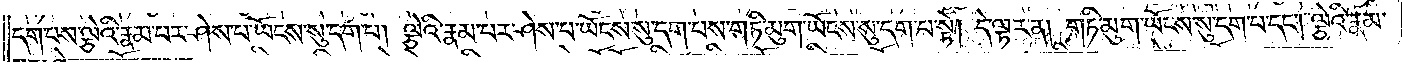དག་པས་ལྕེའི་རྣམ་པར་ཤེས་པ་ཡོངས་སུ་དག་པ། ལྕེའི་རྣམ་པར་ཤེས་པ་ཡོངས་སུ་དག་པས་གཏི་མུག་ཡོངས་སུ་དག་པ་སྟེ། དེ་ལྟར་ན། གཏི་མུག་ཡོངས་སུ་དག་པ་དང༌། ལྕེའི་རྣམ་
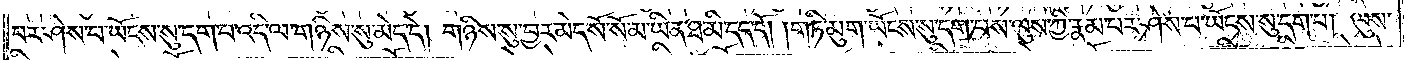པར་ཤེས་པ་ཡོངས་སུ་དག་པ་འདི་ལ་གཉིས་སུ་མེད་དེ། གཉིས་སུ་བྱར་མེད་སོ་སོ་མ་ཡིན་ཐ་མི་དད་དོ། །གཏི་མུག་ཡོངས་སུ་དག་པས་ལུས་ཀྱི་རྣམ་པར་ཤེས་པ་ཡོངས་སུ་དག་པ། ལུས་
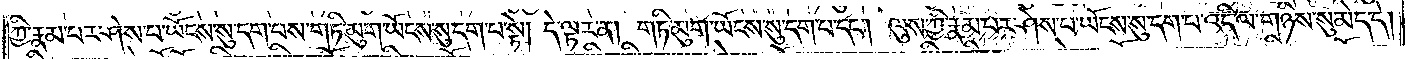ཀྱི་རྣམ་པར་ཤེས་པ་ཡོངས་སུ་དག་པས་གཏི་མུག་ཡོངས་སུ་དག་པ་སྟེ། དེ་ལྟར་ན། གཏི་མུག་ཡོངས་སུ་དག་པ་དང༌། ལུས་ཀྱི་རྣམ་པར་ཤེས་པ་ཡོངས་སུ་དག་པ་འདི་ལ་གཉིས་སུ་མེད་དེ།
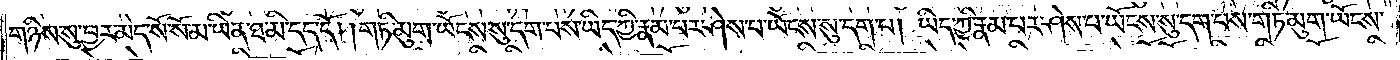གཉིས་སུ་བྱར་མེད་སོ་སོ་མ་ཡིན་ཐ་མི་དད་དོ། །གཏི་མུག་ཡོངས་སུ་དག་པས་ཡིད་ཀྱི་རྣམ་པར་ཤེས་པ་ཡོངས་སུ་དག་པ། ཡིད་ཀྱི་རྣམ་པར་ཤེས་པ་ཡོངས་སུ་དག་པས་གཏི་མུག་ཡོངས་
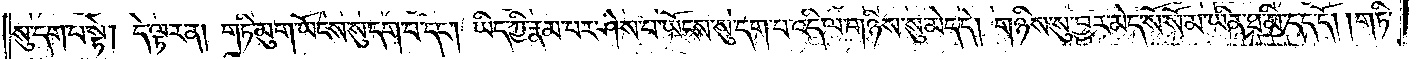སུ་དག་པ་སྟེ། དེ་ལྟར་ན། གཏི་མུག་ཡོངས་སུ་དག་པ་དང༌། ཡིད་ཀྱི་རྣམ་པར་ཤེས་པ་ཡོངས་སུ་དག་པ་འདི་ལ་གཉིས་སུ་མེད་དེ། གཉིས་སུ་བྱར་མེད་སོ་སོ་མ་ཡིན་ཐ་མི་དད་དོ། །གཏི་
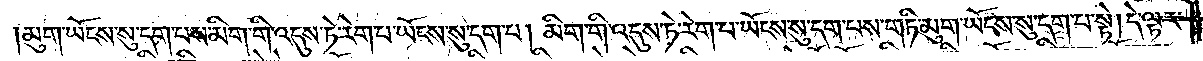མུག་ཡོངས་སུ་དག་པས་མིག་གི་འདུས་ཏེ་རེག་པ་ཡོངས་སུ་དག་པ། མིག་གི་འདུས་ཏེ་རེག་པ་ཡོངས་སུ་དག་པས་གཏི་མུག་ཡོངས་སུ་དག་པ་སྟེ། དེ་ལྟར་
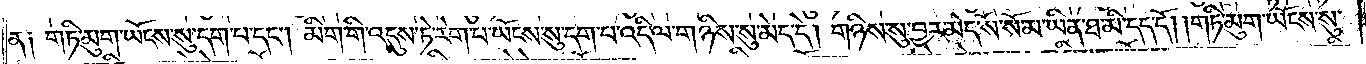ན༑ གཏི་མུག་ཡོངས་སུ་དག་པ་དང༌། མིག་གི་འདུས་ཏེ་རེག་པ་ཡོངས་སུ་དག་པ་འདི་ལ་གཉིས་སུ་མེད་དེ། གཉིས་སུ་བྱར་མེད་སོ་སོ་མ་ཡིན་ཐ་མི་དད་དོ། །གཏི་མུག་ཡོངས་སུ་
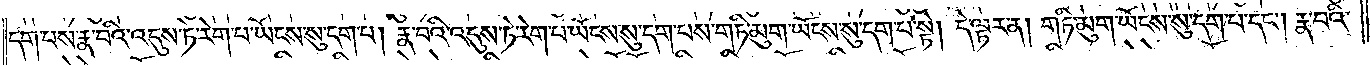དག་པས་རྣ་བའི་འདུས་ཏེ་རེག་པ་ཡོངས་སུ་དག་པ། རྣ་བའི་འདུས་ཏེ་རེག་པ་ཡོངས་སུ་དག་པས་གཏི་མུག་ཡོངས་སུ་དག་པ་སྟེ། དེ་ལྟར་ན། གཏི་མུག་ཡོངས་སུ་དག་པ་དང༌། རྣ་བའི་
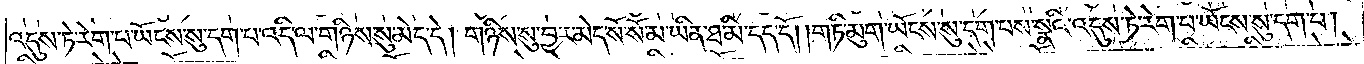འདུས་ཏེ་རེག་པ་ཡོངས་སུ་དག་པ་འདི་ལ་གཉིས་སུ་མེད་དེ། གཉིས་སུ་བྱར་མེད་སོ་སོ་མ་ཡིན་ཐ་མི་དད་དོ། །གཏི་མུག་ཡོངས་སུ་དག་པས་སྣའི་འདུས་ཏེ་རེག་པ་ཡོངས་སུ་དག་པ་
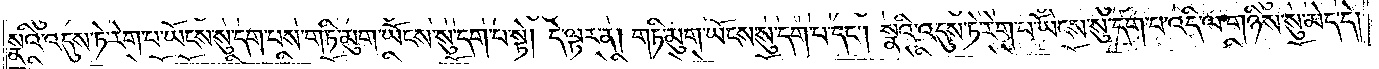སྣའི་འདུས་ཏེ་རེག་པ་ཡོངས་སུ་དག་པས་གཏི་མུག་ཡོངས་སུ་དག་པ་སྟེ། དེ་ལྟར་ན། གཏི་མུག་ཡོངས་སུ་དག་པ་དང༌། སྣའི་འདུས་ཏེ་རེག་པ་ཡོངས་སུ་དག་པ་འདི་ལ་གཉིས་སུ་མེད་དེ།
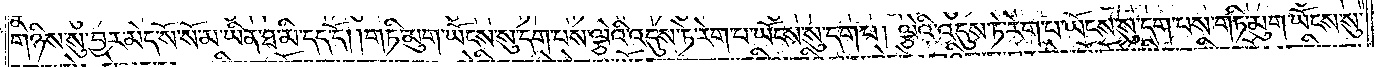གཉིས་སུ་བྱར་མེད་སོ་སོ་མ་ཡིན་ཐ་མི་དད་དོ། །གཏི་མུག་ཡོངས་སུ་དག་པས་ལྕེའི་འདུས་ཏེ་རེག་པ་ཡོངས་སུ་དག་པ། ལྕེའི་འདུས་ཏེ་རེག་པ་ཡོངས་སུ་དག་པས་གཏི་མུག་ཡོངས་སུ་
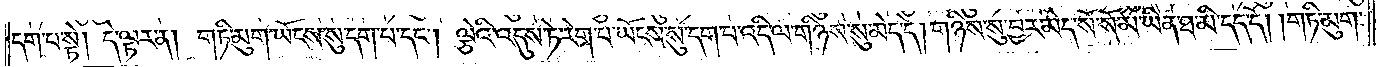དག་པ་སྟེ། དེ་ལྟར་ན། གཏི་མུག་ཡོངས་སུ་དག་པ་དང༌། ལྕེའི་འདུས་ཏེ་རེག་པ་ཡོངས་སུ་དག་པས་དག་པ་འདི་ལ་གཉིས་སུ་མེད་དེ། གཉིས་སུ་བྱར་མེད་སོ་སོ་མ་ཡིན་ཐ་མི་དད་དོ། །གཏི་མུག་
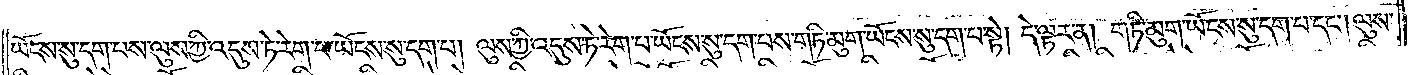ཡོངས་སུ་དག་པས་ལུས་ཀྱིས་འདུས་ཏེ་རེག་པ་ཡོངས་སུ་དག་པ། ལུས་ཀྱི་འདུས་ཏེ་རེག་པ་ཡོངས་སུ་དག་པས་གཏི་མུག་ཡོངས་སུ་དག་པ་སྟེ། དེ་ལྟར་ན། གཏི་མུག་ཡོངས་སུ་དག་པ་དང༌། ལུས་
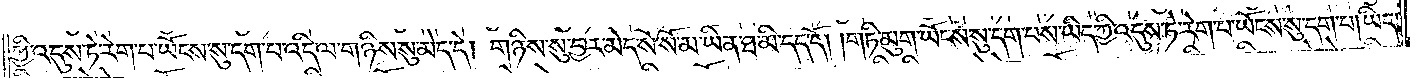ཀྱི་འདུས་ཏེ་རེག་པ་ཡོངས་སུ་དག་པ་འདི་ལ་གཉིས་སུ་མེད་དེ། གཉིས་སུ་བྱར་མེད་སོ་སོ་མ་ཡིན་ཐ་མི་དད་དོ། གཏི་མུག་ཡོངས་སུ་དག་པས་ཡིད་ཀྱི་འདུས་ཏེ་རེག་པ་ཡོངས་སུ་དག་པ། ཡིད་
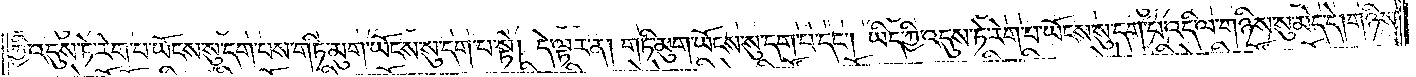ཀྱི་འདུས་ཏེ་རེག་པ་ཡོངས་སུ་དག་པས་གཏི་མུག་ཡོངས་སུ་དག་པ་སྟེ། དེ་ལྟར་ན། གཏི་མུག་ཡོངས་སུ་དག་པ་དང༌། ཡིད་ཀྱི་འདུས་ཏེ་རེག་པ་ཡོངས་སུ་དག་པ་འདི་ལ་གཉིས་སུ་མེད་དེ། གཉིས་
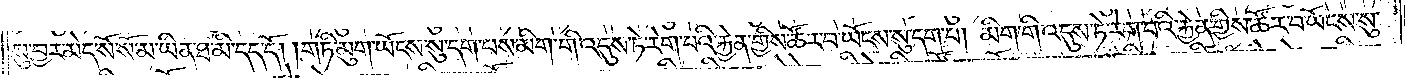སུ་བྱར་མེད་སོ་སོ་མ་ཡིན་ཐ་མི་དད་དོ། །གཏི་མུག་ཡོངས་སུ་དག་པས་མིག་གི་འདུས་ཏེ་རེག་པའི་རྐྱེན་གྱིས་ཚོར་བ་ཡོངས་སུ་དག་པ་དང༌། མིག་གི་འདུས་ཏེ་རེག་པའི་རྐྱེན་གྱིས་ཚོར་བ་ཡོངས་སུ་
